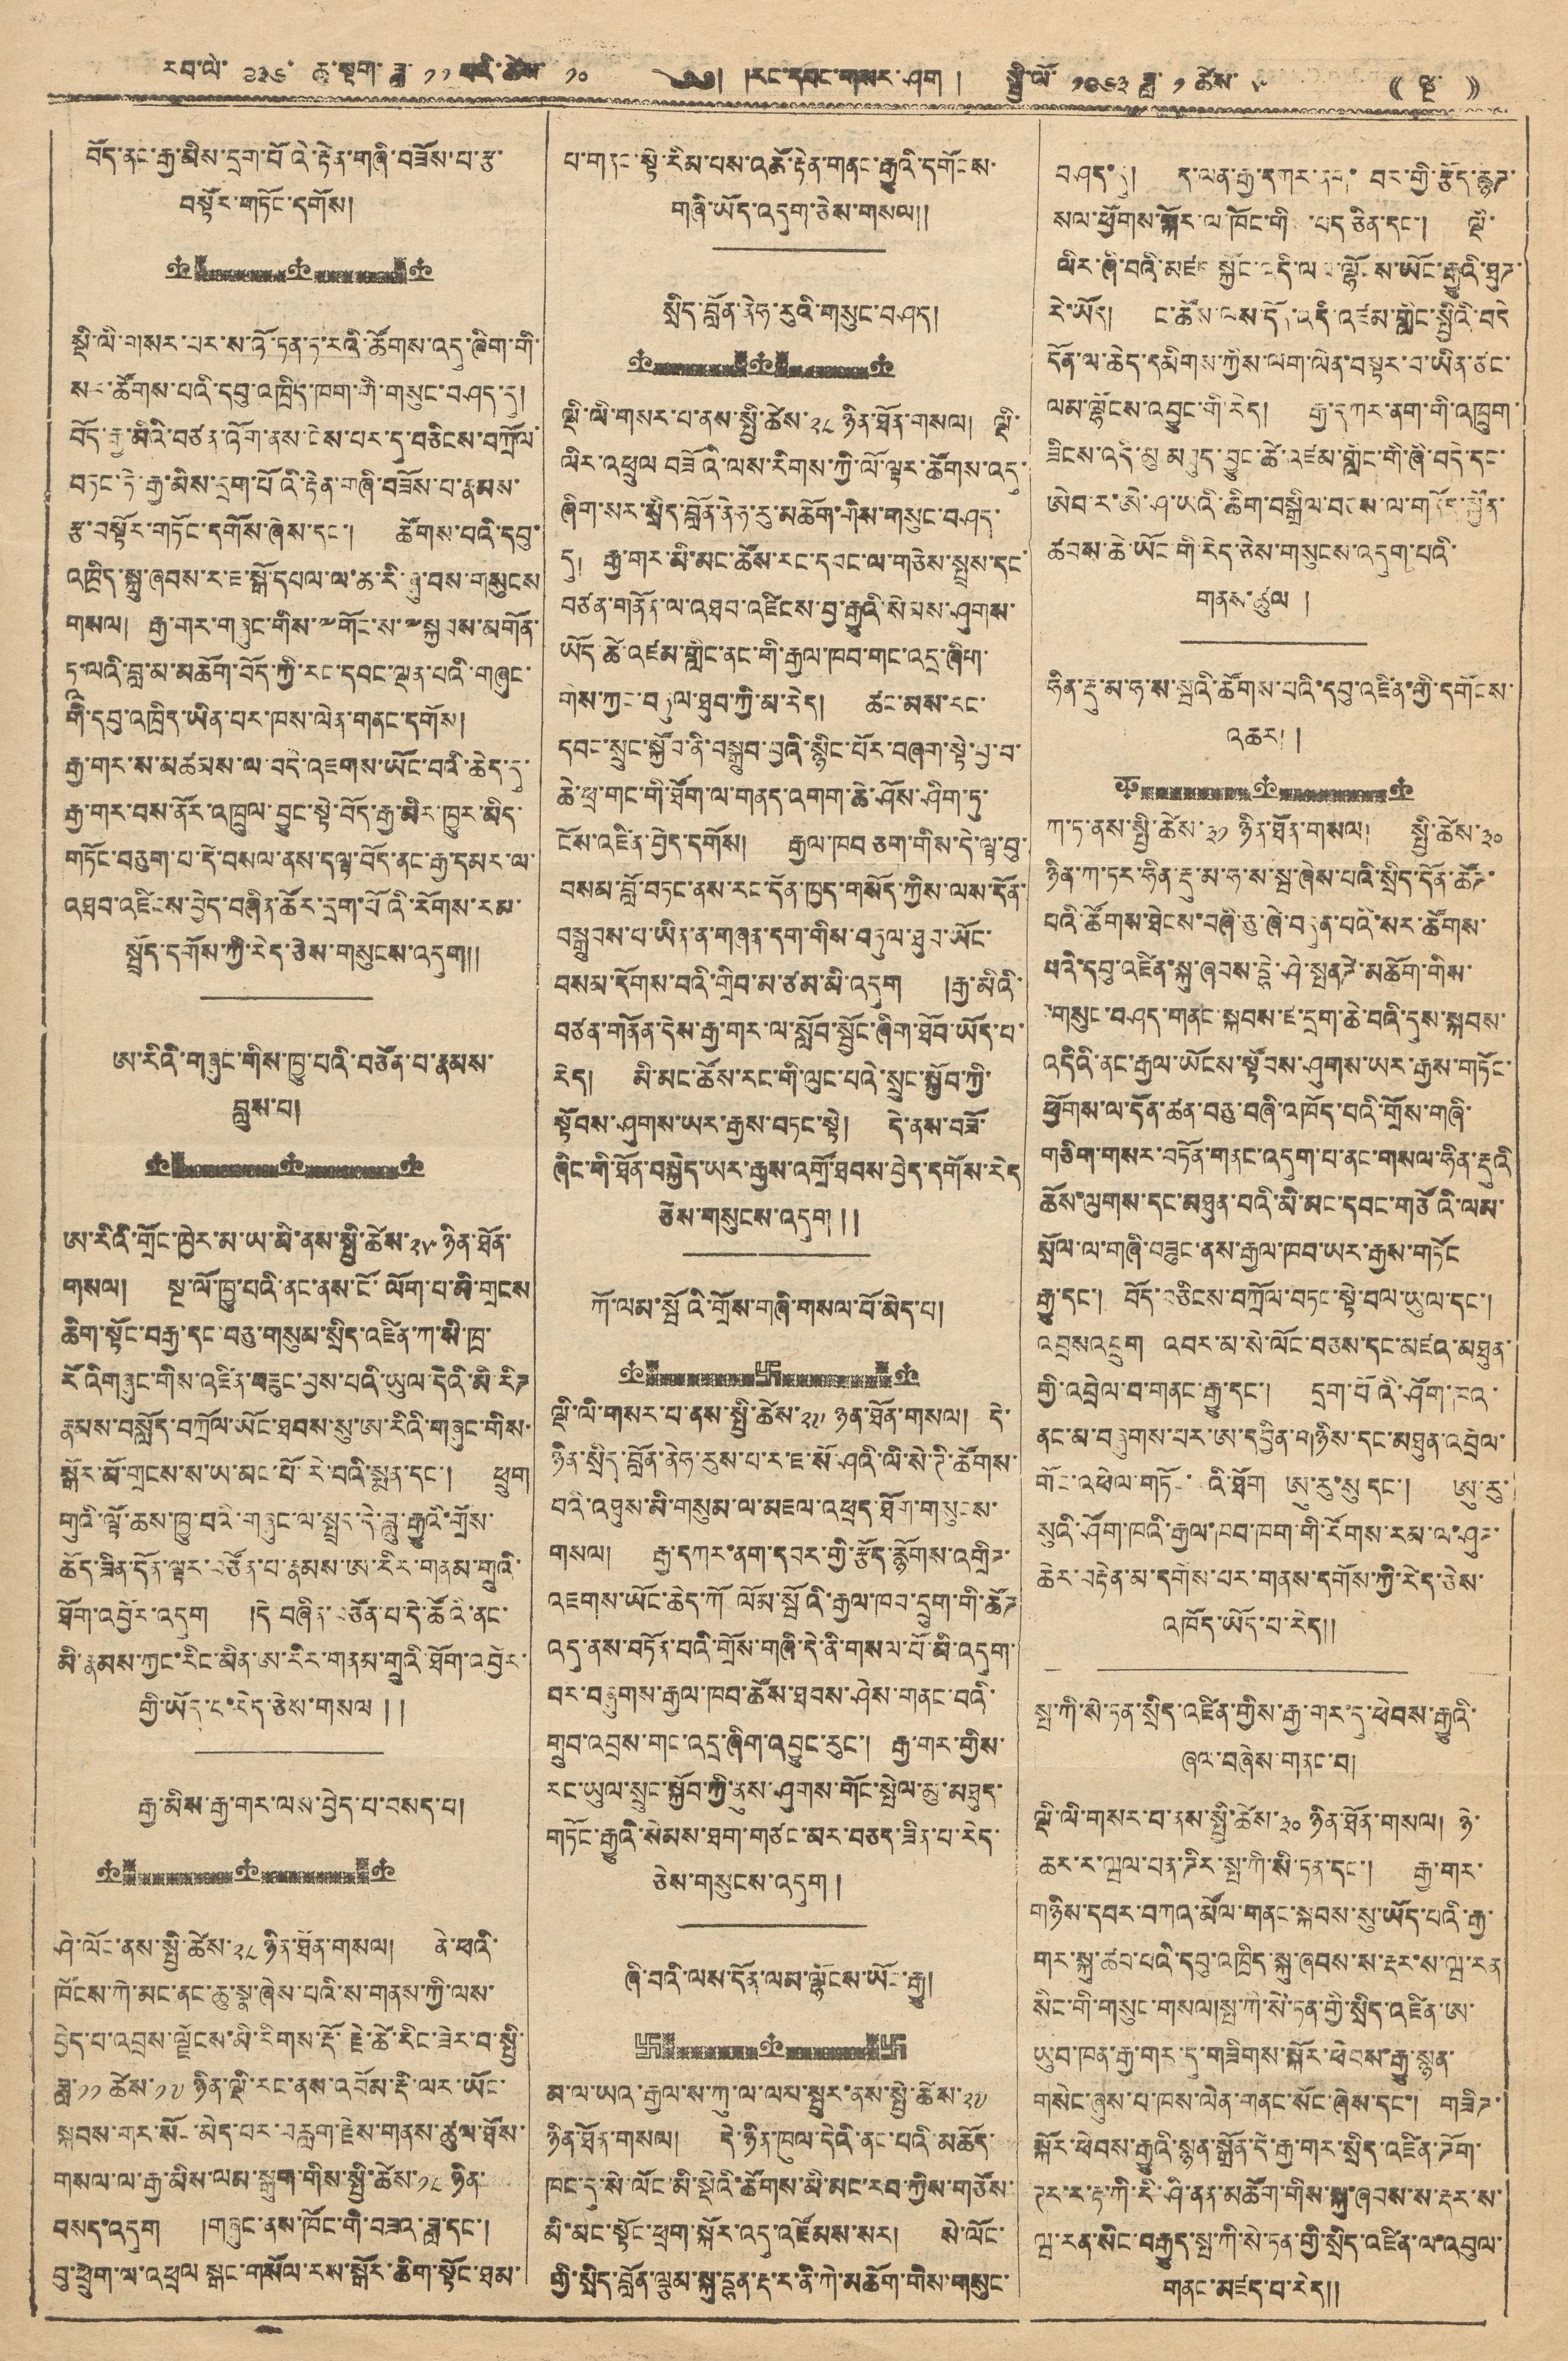རབ་ལོ་ ༩༣༦ ཆུ་སྟག་ཟླ་ ༡༡ པའི་ཚེས་ ༡༠ ༄༅། །རང་དབང་གསར་ཤོག ། སྤྱི་ལོ་ ༡༩༦༣ ཟླ་ ༡ ཚེས་ ༥ (( ལྔ་ ))
བོད་ནང་རྒྱ་མིས་དྲག་པོའི་རྟེན་གཞི་བཟོས་པ་རྩ་
བསྟོར་གཏོང་དགོས།
སྡི་ལི་གསར་པར་ས་འོ་ཏན་ཏ་རའི་ཚོགས་འདུ་ཞིག་གི་
སར་ཚོགས་པའི་དབུ་འཁྲིད་ཁག་གི་གསུངས་བཤད་དུ།
བོད་རྒྱ་མིའི་བཙན་འོག་ནས་ངེས་པར་དུ་བཅིངས་བཀྲོལ་
བཏང་ཏེ་རྒྱ་མིས་དྲག་པོའི་རྟེན་གཞི་བཟོས་པ་རྣམས་
རྩ་བསྟོར་གཏོང་དགོས་ཞེས་དང་། ཚོགས་པའི་དབུ་
འཁྲིད་སྐུ་ཞབས་ར་ཇ་སྒོ་དཔལ་ལ་ཆ་རི་ཞུ་བས་གསུངས
གསལ། རྒྱ་གར་གཞུང་གིས་༸གོང་ས་༸སྐྱབས་མགོན་
ཏཱ་ལའི་བླ་མ་མཆོག་བོད་ཀྱི་རང་དབང་ལྡན་པའི་གཞུང་
གི་དབུ་འཁྲིད་ཡིན་པར་ཁས་ལེན་གནང་དགོས།
རྒྱ་གར་ས་མཚམས་ལ་འདི་འཇགས་ཡོང་བའི་ཆེད་དུ་
རྒྱ་གར་བས་ནོར་འཁྲུལ་བྱུང་སྟེ་བོད་རྒྱ་མིར་ཁྱུར་མིད་
གཏོང་བཅུག་པ་དེ་བསམ་ནས་དལྟ་བོད་ནང་རྒྱ་དམར་ལ་
འཐབ་འཛིངས་བྱེད་བཞིན་ཚོར་དྲག་པོའི་རོགས་རམ་
སྤྲོད་དགོས་ཀྱི་རེད་ཅེས་གསུངས་འདུག།།
ཨ་རིའི་གཞུང་གིས་ཁྱུ་པའི་བཙོན་པ་རྣམས་
བླུས་པ།
ཨ་རིའི་གྲོང་ཁྱེར་མ་ཡ་མི་ནས་སྤྱི་ཚེས་ ༢༥ ཉིན་ཐོན་
གསལ། སྔ་ལོ་ཁྱུ་པའི་ནང་ནས་ངོ་ལོག་པ་མི་གྲངས
ཆིག་སྟོང་བརྒྱ་དང་བཅུ་གསུམ་སྲིད་འཛིན་ཀ་སི་ཁྲ་
རོའི གཞུང་གིས་འཛིན་བཟུང་བྱས་པའི་ཡུལ་དེའི་མི་རིཊ
རྣམས་བསློད་བཀྲོལ་ཡོང་ཐབས་སུ་ཨ་རིའི་གཞུང་གིས་
སྒོར་མོ་གྲངས་ས་ཡ་མང་པོ་རེ་བའི་སྨན་དང་། ཕྲུག
གུའི་ལྟོ་ཆས་ཁྱུ་བའི་གཞུང་ལ་སྤྲད་དེ་བླུ་རྒྱུའི་གྲོས་
ཆོད་ཟིན་དོན་ལྟར་བཙོན་པ་རྣམས་ཨ་རིའི་གནམ་གྲུའི་
ཐོག་འབྱོར་འདུག །དེ་བཞིན་བཙོན་པ་དེ་ཚོའི་ནང་
མི་རྣམས་ཀྱང་རིང་མིན་ཨ་རིར་གནམ་གྲུའི་ཐོག་འབྱོར་
གྱི་ཡོད་པ་རེད་ཅེས་གསལ།།
རྒྱ་མིས་རྒྱ་གར་ལས་བྱེད་པ་བསད་པ།
ཤེ་ལོང་ནས་སྤྱི་ཚེས ༢༨ ཉིན་ཐོན་གསལ། ནེ་ཕའི་
ཁོངས་ཀེ་མང་ནང་ཆུ་སྣ་ཞེས་པའི་ས་གནས་ཀྱི་ལས་
བྱེད་པ་འབྲས་ལྗོངས་མི་རིགས་རྡོ་རྗེ་ཚེ་རིང་ཟེར་བ་སྤྱི་
ཟླ་༡༡ ཚེས་༡༧ ཉིན་ལྡི་རང་ནས་འབོམ་རྡི་ལར་ཡོང་
སྐབས་གར་སོང་མེད་པར་བརླག་རྗེས་གནས་ཚུལ་ཐོས་
གསལ་ལ་རྒྱ་མིས་ལམ་སྒུག་གིས་སྤྱི་ཚེས་ ༡༨ ཉིན་
བསད་འདུག །གཞུང་ནས་ཁོང་གི་བཟའ་ཟླ་དང་།
བུ་ཕྲུག་ལ་འཕྲལ སྒང་གསོལ་རས་སྒོར་ཆིག་སྟོང་ཐམ་
པ་གནང་སྟེ་རིམ་པས་འཚོ་རྟེན་གནང་རྒྱུའི་དགོངས་
གཞི་ཡོད་འདུག་ཅེས་གསལ།།
སྲིད་བློན་ནེཧ་རུའི་གསུང་བཤད།
ལྡི་ལི་གསར་པ་ནས་སྤྱི་ཚེས་ ༢༨ ཉིན་ཐོན་གསལ། ལྡི་
ལིར་འཕྲུལ བཟོའི་ལས་རིགས་ཀྱི་ལོ་ལྟར་ཚོགས་འདུ་
ཞིག་སར་སྲིད་བློན་ནེཧ་རུ་མཆོག་གིས་གསུང་བཤད་
དུ། རྒྱ་གར་མི་མང་ཚོས་རང་དབང་ལ་གཅེས་སྤྲས་དང་
བཙན་གནོན་ལ་འཐབ་འཛིངས་བྱ་རྒྱུའི་སེམས་ཤུགས་
ཡོད ཚེ་འཛམ་གླིང་ནང་གི་རྒྱལ་ཁབ་གང་འདྲ་ཞིག་
གིས་ཀྱང་བཏུལ་ཐུབ་ཀྱི་མ་རེད། ཚང་མས་རང་
དབང་སྲུང་སྐྱོབ་ནི་བསྒྲུབ་བྱའི་སྙིང་པོར་བཞག་སྟེ་བྱ་བ་
ཆེ་ཕྲ་གང་གི་ཐོག་ལ་གནད་འགག་ཆེ་ཤོས་ཤིག་ཏུ་
ངོས་འཛིན་བྱེད་དགོས། རྒྱལ་ཁབ ཅག་གིས་དེ་ལྟ་བུ་
བསམ་བློ་བཏང་ནས་རང་དོན་ཁྱད་གསོད་ཀྱིས་ལས་དོན་
བསྒྲུབས་པ་ཡིན་ན་གཞན་དག་གིས་བཏུལ་ཐུབ་ཡོང་
བསམ་རོགས་བའི་གྲིབ་མ་ཙམ་མི་འདུག །རྒྱ་མིའི་
བཙན་གནོན་དེས་རྒྱ་གར་ལ་སློབ་སྦྱོང་ཞིག་ཐོབ་ཡོད་པ་
རེད། མི་མང་ཚོས་རང་གི་ལུང་པའི་སྲུང་སྐྱོབ་ཀྱི་
སྟོབས་ཤུགས་ཡར་རྒྱས་བཏང་སྟེ། དེ་ནས་བཟོ་
ཞིང་གི་ཐོན་བསྐྱེད་ཡར་རྒྱས་འགྲོ་ཐབས་བྱེད་དགོས་རེད
ཅེས་གསུངས་འདུག།།
ཀོ་ལམ་སྦོའི་གྲོས་གཞི་གསལ་པོ་མེད་པ།
ལྡི་ལི་གསར་པ་ནས་སྤྱི་ཚེས་༢༧ ཉིན་ཐོན་གསལ། དེ་
ཉིན་སྲིད་བློན་ནེཧ་རུས་པ་ར་ཇ་སོ་ཤའི་ལི་སེ་ཌི་ཚོགས་
བའི་འཐུས་མི་གསུམ་ལ་མཇལ་འཕྲད་ཐོག་གསུངས་
གསལ། རྒྱ་དཀར་ནག་དབར་གྱི་རྩོད་རྙོགས་འགྲིཊ་
འཇགས་ཡོང་ཆེད་ཀོ ལོམ་སྤོའི་རྒྱལ་ཁྱབ་དྲུག་གི་ཚོཊ
འདུ་ནས་བཏོན་པའི་གྲོས་གཞི་དེ་ནི་གསལ་པོ་མི་འདུག་
བར་བཞུགས་རྒྱལ་ཁབ་ཚོས་ཐབས་ཤེས་གནང་བའི་
གྲུབ་འབྲས་གང་འདྲ་ཞིག་འབྱུང་རུང་། རྒྱ་གར་གྱིས་
རང་ཡུལ་སྲུང་སྐྱོབ་ཀྱི་ནུས་ཤུགས་གོང་སྤེལ་མུ་མཐུད་
གཏོང་རྒྱུའི་སེམས་ཐག་གཙང་མར་བཅད་ཟིན་པ་རེད་
ཅེས་གསུངས་འདུག །
ཞི་བའི་ལས་དོན་ལམ་ལྷོངས་ཡོང་རྒྱུ།
མ་ལ་ཡའ་རྒྱལ་ས་ཀུ་ལ་ལས་སྤུར་ནས་སྤྱི་ཚེས་ ༢༧
ཉིན་ཐོག་གསལ། དེ་ཉིན་ཁུལ་དེའི་ནང་པའི་མཆོད་
ཁང་དུ་སེ་ལོང་མི་སྡེའི་ཚོགས་མི་མང་རབ་ཀྱིས་གཙོས་
མི་མང་སྟོང་ཕྲག་སྐོར་འདུ་འཛོམས་སར། སེ་ལོང་
གྱི་སྲིད་བློན་ལྕམ་སྐུ་བྷན་རྡ་ར་ནི་ཀེ་མཆོག་གིས་གསུང་
བཤད་དུ། ད་ལན་རྒྱ་དཀར་ནག་ བར་གྱི་རྩོད་རྙོཊ་
སལ་ཕྱོགས་སྐོར་ལ་ཁོང་གིས་པད་ཅིན་དང་། ལྡི་
ལིར་ཞི་བའི་མཛད་སྐྱོང་འདི་ལམ་ལྷོངས་ཡོང་རྒྱུའི་ཐུཊ་
རེ་ཡོད། ང་ཚོས་ལས་དོན་འདི་འཛམ་གློང་སྤྱིའི་བདེ
དོན་ལ་ཆེད་དམིགས་ཀྱིས་ལག་ལེན་བསྟར་བ་ཡིན་ཙང་
ལམ་ལྷོངས་འབྱུང་གི་རེད། རྒྱ་དཀར་ནག་གི་འཁྲུག་
ཟིངས་འདི་མུ མཐུད་བྱུང་ཚེ་འཛམ་གླིང་གི་ཞི་བདེ་དང་
ཨེབ་ར་ཨེ་ཤ་ཡའི་ཆིག་བསྒྲིལ་བཅས་གནོད་སྐྱོན་
ཚབས་ཆེ་ཡོང་གི་རེད་ཅེས་གསུངས་འདུག་པའི་
གནས་ཚུལ །
ཧིན་རྡུ་མ་ཧ་ས་སྦའི་ཚོགས་པའི་དབུ་འཛིན་གྱི་དགོངས་
འཆར། །
ཀ་ཏ་ནས་སྤྱི་ཚེས་༣༡ ཉིན་ཐོན་གསལ། སྤྱི་ཚེས་ ༣༠
ཉིན་ཀ་ཏར་ཧིན་རྡུ་མ་ཧ་ས་སྦ་ཞེས་པའི་སྲིད་དོན་ཚོཊ་
པའི་ཚོགས་ཐེངས་བཞི་ཅུ་ཞེ་བདུན་པའི་སར་ཚོགས་
པའི་དབུ་འཛིན་སྐུ་ཞབས་དྷེ་ཤེ་སྤན ཌེ་མཆོག་གིས་
གསུང་བཤད་གནང་སྐབས་ཛ་དྲག་ཆེ་བའི་དུས་སྐབས་
འདིའི་ནང་རྒྱལ་ཡོངས་སྟོབས་ཤུགས་ཡར་རྒྱས་གཏོང་
ཕྱོགས་ལ་དོན་ཚང་བཅུ་བཞི་འཁོད་པའི་གྲོས་གཞི་
གཅིག་གསར་བཏོན་གནང་འདུག་པ་ནང་གསལ་ཧིན་རྡུའི
ཆོས་ལུགས་དང་མཐུན་པའི་མི་མང་དབང་གཙོའི་ལམ་
སྲོལ་ལ་གཞི་བཟུང་ནས་རྒྱལ་ཁབ་ཡར་རྒྱས་གཏོང
རྒྱུ་དང་། བོད་བཅིངས་བཀྲོལ་བཏང་སྟེ་བལ་ཡུལ་དང་།
འབྲསའབྲུག འབར་མ་སི་ལོང་བཅས་དང་མཛའ་མཐུན་
གྱི་འབྲེལ་བ་གནང་རྒྱུ་དང་། དྲག་པོའི་ཤོག་ཁའི་
ནང་མ་བཞུགས་པར་ཨ་དབྱིན་གཉིས་དང་མཐུན་འབྲེལ་
གོང་འཕེལ་གཏོང་པའི་ཐོག ཨུ་རུ་སུ དང་། ཨུ་རུ་
སུའི་ཤོག་ཁའི་རྒྱལ་ཁབ་ཁག་གི་རོགས་རམ་ལ་ཤུཊ་
ཆེར་བརྟེན་མ་དགོས་པར་གནས་དགོས་ཀྱི་རེད་ཅེས་
འཁོད་ཡོད་པ་རེད།།
སྤ་ཀི་སི་ཏན་སྲིད་འཛིན་གྱིས་རྒྱ་གར་དུ་ཕེབས་རྒྱུའི་
ཞལ་བཞེས་གནང་བ།
ལྡི་ལི་གསར་བ་ནས་སྤྱི་ཚེས་ ༣༠ ཉིན་ཐོན་གསལ། ཉེ་
ཆར་ར་ཝལ་པན་ཌིར་སྤ་ཀི་སི་ཏན་དང་། རྒྱ་གར་
གཉིས་དབར་བཀའ་མོལ་གནང་སྐབས་ཡོད་པའི་རྒྱ་
གར་སྐུ་ཚབ་པའི་དབུ་འཁྲིད་སྐུ་ཞབས་ས་རྡར་ས་ཝ་རན
སིང་གི་གསུང་གསལ།སྤ་ཀི་སི་ཏན་གྱི་སྲིད་འཛིན་ཨ་
ཡུབ་ཁན་རྒྱ་གར་དུ་གཟིགས་སྐོར་ཕེབས་རྒྱུ་སྙན་
གསེང་ཞུས་པ་ཁས་ལེན་གནང་སོང་ཞེས་དང་། གཟིཊ་
སྐོར་ཕེབས་རྒྱུའི་སྙན་སྒྲོན་དེ་རྒྱ་གར་སྲིད་འཛིན་ཌོག་
ཊར་ར་རྟ་ཀི་རི་ཤི་ནན་མཆོག་གིས་སྐུ་ཞབས་ས་རྡར་ས་
ཝ་རན་སིང་བརྒྱུད་སྤ་ཀི་སི་ཏན་གྱི་སྲིད་འཛིན་ལ་འབུལ་
གནང་མཛད་པ་རེད།།
